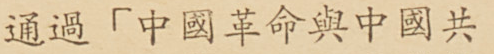通過「中國革命與中國共
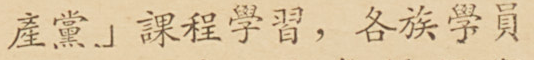產黨」課程學習，各族學員
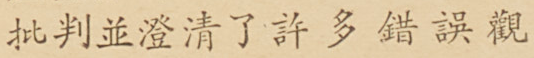批判並澄清了許多錯誤觀
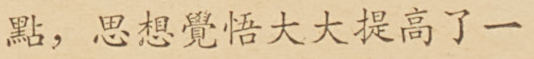點，思想覺悟大大提高了一
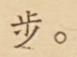步。
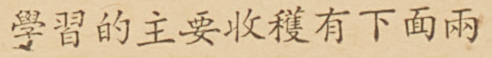學習的主要收穫有下面兩
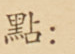點：
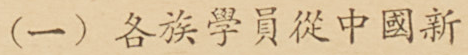（一）各族學員從中國新
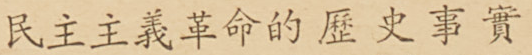民主主義革命的歷史事實
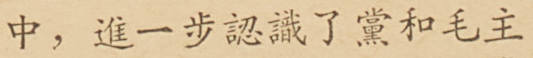中，進一步認識了黨和毛主
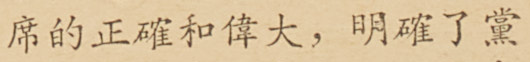席的正確和偉大，明確了黨
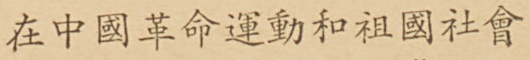在中國革命運動和祖國社會
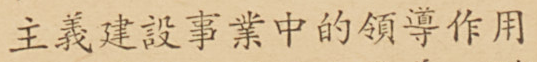主義建設事業中的領導作用
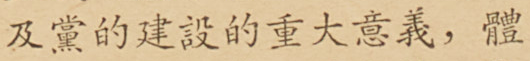及黨的建設的重大意義，體
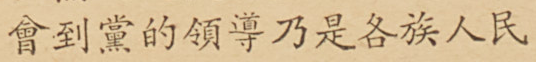會到黨的領導乃是各族人民
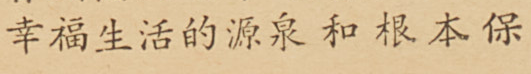幸福生活的源泉和根本保
